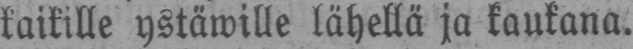kaikille ystäwille lähellä ja kaukana.
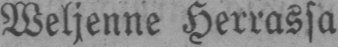Weljenne Herrassa
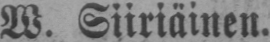W. Siiriäinen.
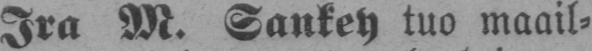Ira M. Sankey tuo maail-
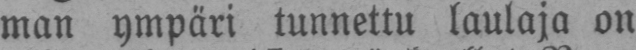man ympäri tunnettu laulaja on
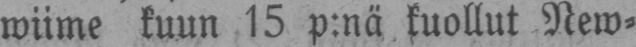wiime kuun 15 p:nä kuollut New-
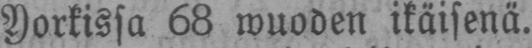Yorkissa 68 wuoden ikäisenä.
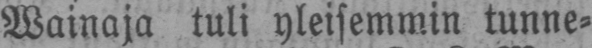Wainaja tuli yleisemmin tunne-
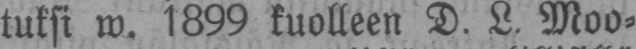tuksi w. 1899 kuolleen D. L. Moo-
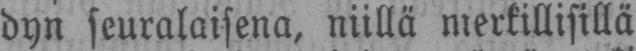dyn seuralaisena, niillä merkillisillä
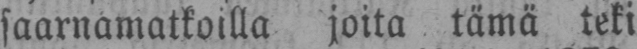saarnamatkoilla joita tämä teki
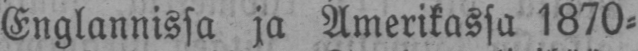Englannissa ja Amerikassa 1870-
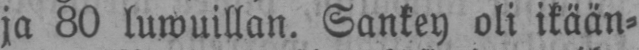ja 80 luwuillan. Sankey oli ikään-
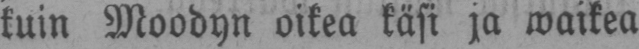kuin Moodyn oikea käsi ja waikea
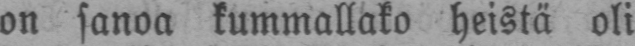on sanoa kummallako heistä oli
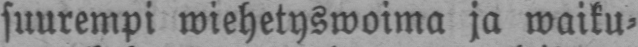suurempi wiehetyswoima ja waiku-
